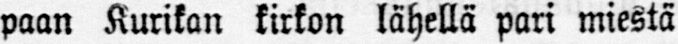paan Kurikan kirkon lähellä pari miestä
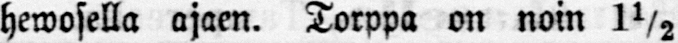hewosella ajaen. Torppa on noin 1½
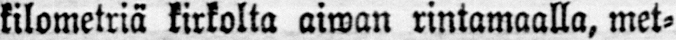kilometriä kirkolta aiwan rintamaalla, met-
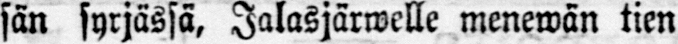sän syrjässä, Jalasjärwelle menewän tien
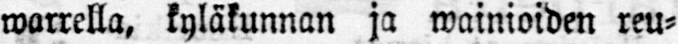warrella, kyläkunnan ja wainioiden reu-
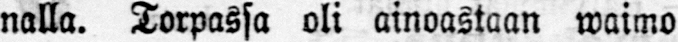nalla. Torpassa oli ainoastaan waimo
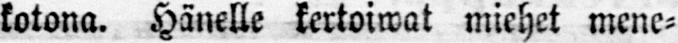kotona. Hänelle kertoiwat miehet mene-
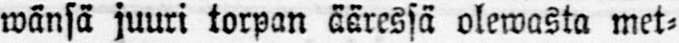wänsä juuri torpan ääressä olewasta met-
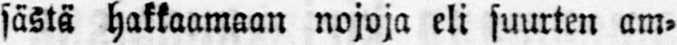sästä hakkaamaan nojoja eli suurten am-
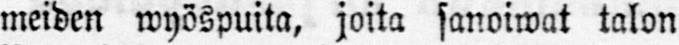meiden wyöspuita, joita sanoiwat talon
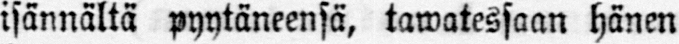isännältä pyytäneensä, tawatessaan hänen
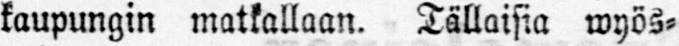kaupungin matkallaan. Tällaisia wyös-
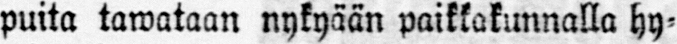puita tawataan nykyään paikkakunnalla hy-
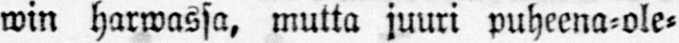win Harwassa, mutta juuri puheena-ole-
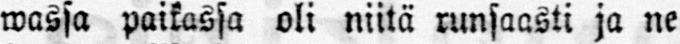wassa paikassa oli niitä runsaasti ja ne
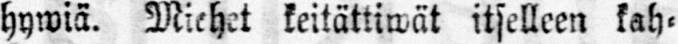hywiä. Miehet keitättiwät itselleen kah-
